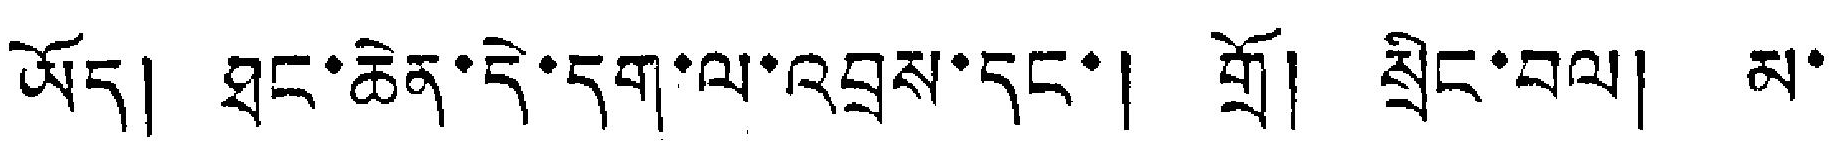ཡོད། ཐང་ཆེན་དེ་དག་ལ་འབྲས་དང་། གྲོ། སྲིང་བལ། མ་
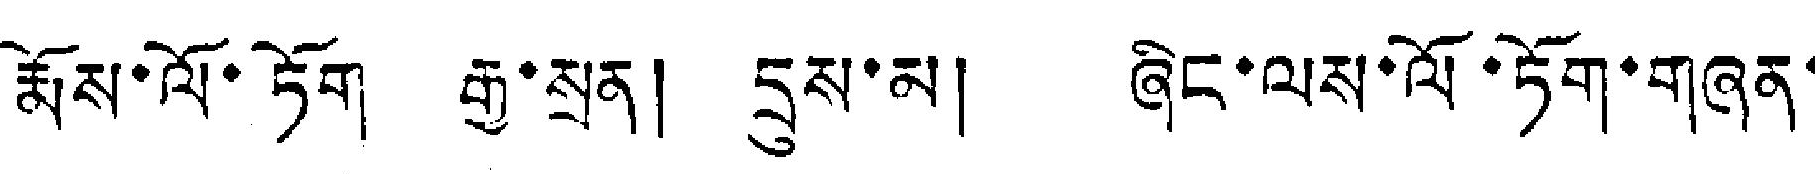རྨོས་ལོ་ཏོག རྒྱ་སྲན། དྲུས་མ། ཞིང་ལས་ལོ་ཏོག་གཞན་
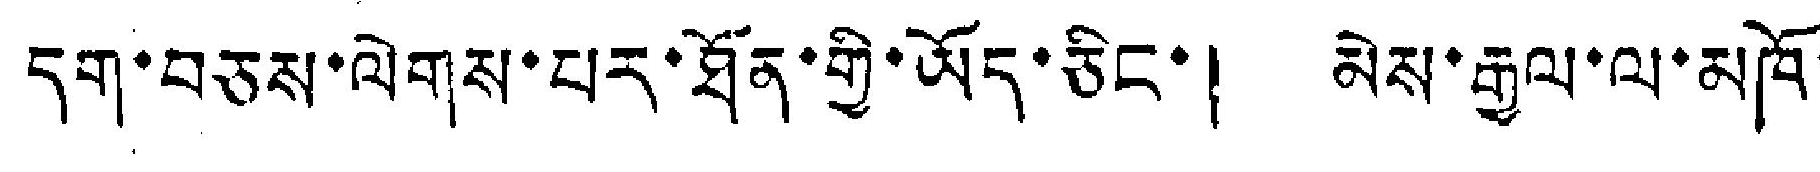དག་བཅས་ལེགས་པར་ཐོན་གྱི་ཡོད་ཅིང་། མེས་རྒྱལ་ལ་མཁོ་
